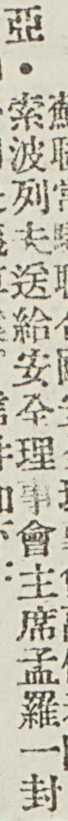亞・索波列夫送給安全理事會主席孟羅一封
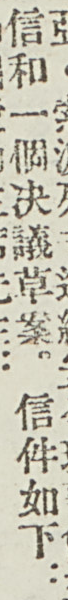信和一個決議草案。信件如下：
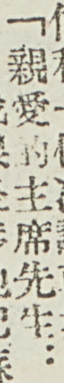「親愛的主席先生：
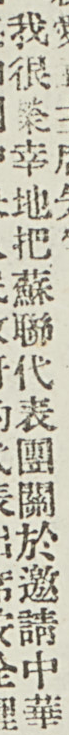我很榮幸地把蘇聯代表團關於邀請中華
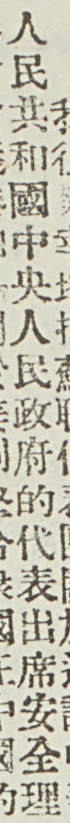人民共和國中央人民政府的代表出席安全理
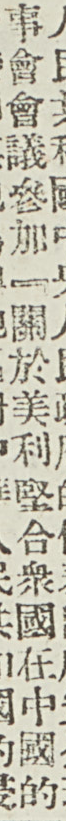事會會議參加『關於美利堅合衆國在中國的
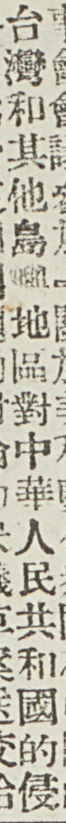台灣和其他島嶼地區對中華人民共和國的侵
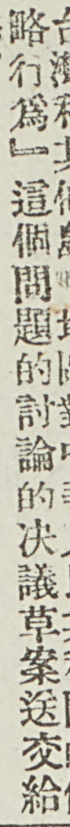略行爲』這個問題的討論的決議草案送交給
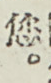您。
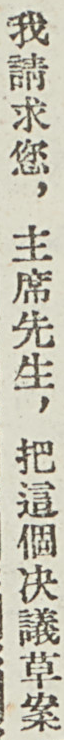我請求您，主席先生，把這個決議草案
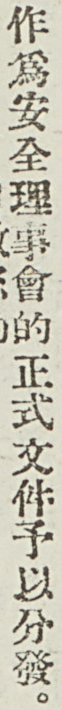作爲安全理事會的正式文件予以分發。
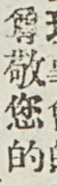尊敬您的
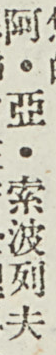阿・亞・索波列夫
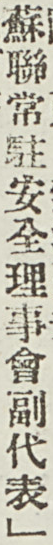蘇聯常駐安全理事會副代表」
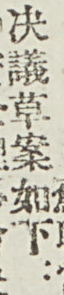決議草案如下：
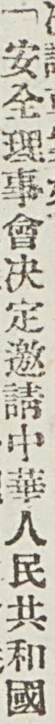「安全理事會決定邀請中華人民共和國
